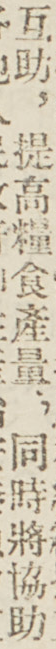互助，提高糧食產量；同時將協助
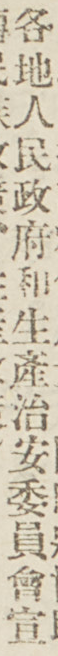各地人民政府和生產治安委員會宣
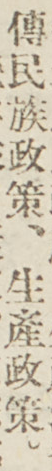傳民族政策、生產政策。
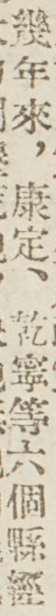幾年來，康定、乾寧等六個縣經
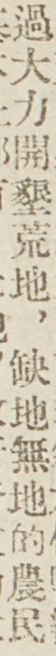過大力開墾荒地，缺地無地的農民
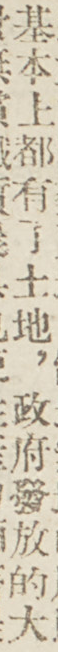基本上都有了土地，政府發放的大
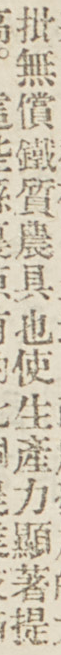批無償鐵質農具也使生產力顯著提
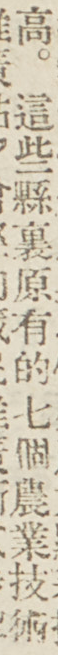高。這些縣裏原有的七個農業技術
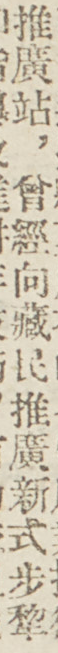推廣站，曾經向藏民推廣新式步犂
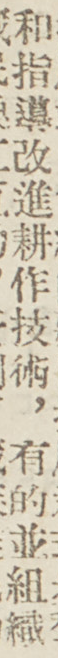和指導改進耕作技術，有的並組織
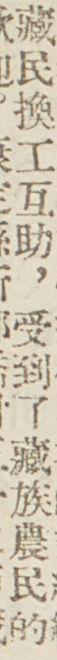藏民換工互助，受到了藏族農民的
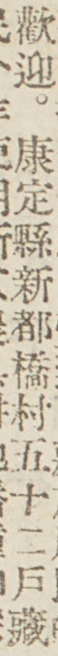歡迎。康定縣新都橋村五十二戶藏
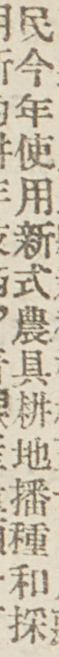民今年使用新式農具耕地播種和採
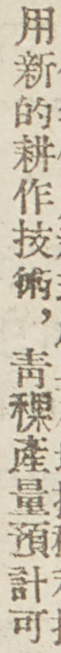用新的耕作技術，靑稞產量預計可
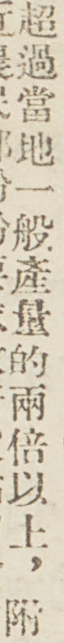超過當地一般產量的兩倍以上，附
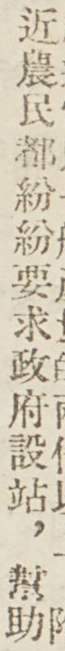近農民都紛紛要求政府設站，幫助
